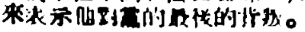來表示他對黨的最後的背叛。
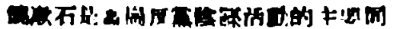饒漱石是高崗反黨陰謀活動的主要同
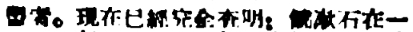盟者。現在已經完全查明：饒漱石在一
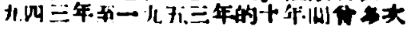九四三年至一九五三年的十年間曾多次
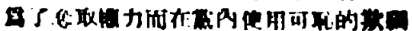爲了奪取權力而在黨內使用可恥的欺騙
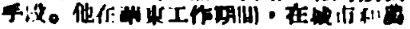手段。他在華東工作期間，在城市和農
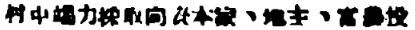村中竭力採取向資本家、地主、富農投
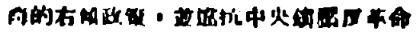降的右傾政策，並違抗中央鎮壓反革命
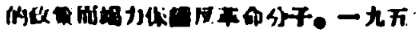的政策而竭力保護反革命分子。一九五
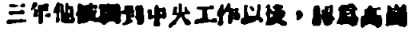三年他被調到中央工作以後，認爲高崗
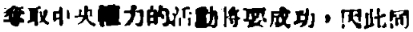奪取中央權力的活動將要成功，因此同
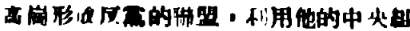高崗形成反黨的聯盟，利用他的中央組
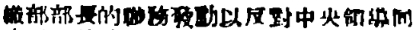織部部長的職務發動以反對中央領導同
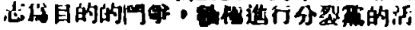志爲目的的鬥爭，積極進行分裂黨的活
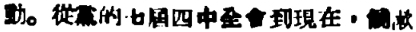動。從黨的七屆四中全會到現在，饒漱
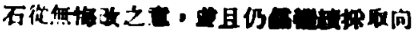石從無悔改之意，並且仍然繼續採取向
